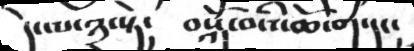དེ་ལ་༣་སྟེ།  བསྐོ་བའི་ཆོ་ག་དང།
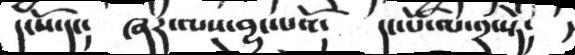དངོས་དང། ཞར་ལས་བྱུང་པའོ། དང་པོ་ལ་༢་སྟེ།
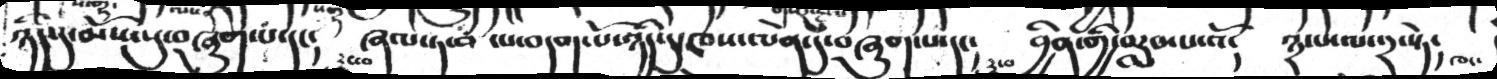ཉིད་དུ་མོས་སུ་བཞུག་པ་དང༴   ཞལ་ཏ་བ་པ་བདག་པོ་ཉིད་དུ་ཁས་ལེན་དུ་བཞུག་པ་དང་།  བྱིན་གྱི་བརླབ་པ་འོ༴  ༣་པ་ལ་༢་སྟེ༴
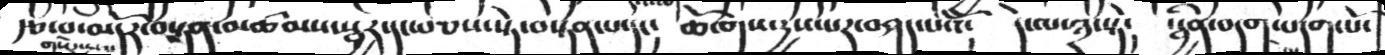རྩ་བ་མདོར་བསྟན་མཚམས་སྦྱར་དང་བཅས་སྟེ་བསྟན་པ་དང།    ཆོ་གས་རྱས་པར་བཤད་པའོ།   དེ་ལ་༣་སྟེ།   དེ་ལ་༣་སྟེ།    སྦྱིན་བདག་བདག་པོ་
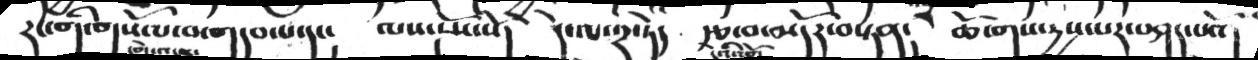རང་གི་གསོལ་བ་གདབ་པ་དང།    ལས་རྔོས་སོ།    དེ་ལ་༢་ཏེ།   རྩ་བ་མདོར་བསྟན།    ཆོ་གས་རྱས་པར་བཤད་པའོ།
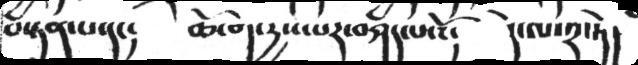བསྟན་པ་དང། ཆོ་ག་རྱས་པར་བཤད་པའོ། དེ་ལ་༢་ཏེ།
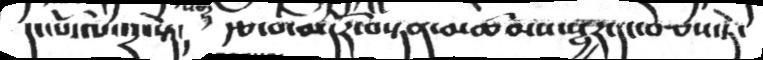དང་པོ་ལ་༢་སྟེ༴   རྩ་བ་མདོར་བསྟན་མཚམས་སྦྱར་དང་བཅས་ཏེ་
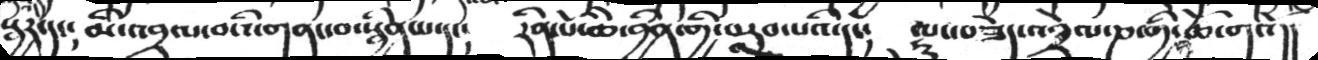སྦྱར་དང། མི་འབྲལ་བའི་གནང་བ་སྦྱིན་པ་དང། རིན་པོ་ཆེ་བྱིན་གྱི་བརླབ་པའི་དང། ལྷུང་བཟེད་འབྲེལ་ཎ་གི་ཆོ་གའོ།།
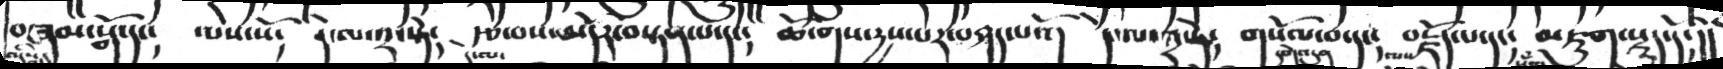བཞམ་སྒོ་དང༴  ལས་སོ༴  དེ་ལ་༢་སྟེ༴ རྩ་བས་མདོར་བསྟན་པ་དང༴   ཆོ་གས་དྱས་པར་བཤད་པའོ།  དེ་ལ་༢་ཏེ༴   གསོལ་བ་དང༴  བརྗོད་པ་དང༴  མཇུག་སྡུད་དོ༴།།
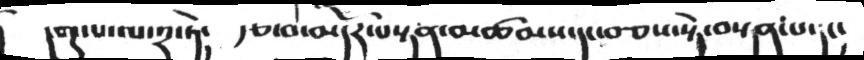དགུ་པ་ལ་༢་ཏེ།  རྩ་བ་མདོར་བསྟན་མཚམས་དང་བཅས་སྟེ་བསྟན་པ་དང།
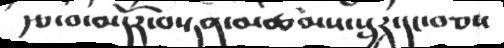རྩ་བ་མདོར་བསྟན་མཚམས་སྦྱར་དང་བཅས
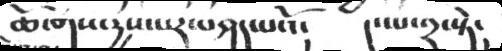ཆོ་གས་རྱས་པར་བཤད་པའོ། ད་ཡ་༢་སྟེ།
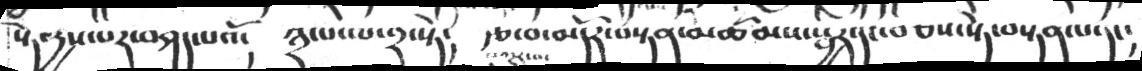སྟེ་དྱས་པར་བཤད་པའོ༴   ༣་པ་ལ་༢་སྟེ༴   རྩ་བ་མདོར་བསྟན་མཚམས་སྦྱར་དང་བཅས་སྟེ་བསྟན་པ་དང༴
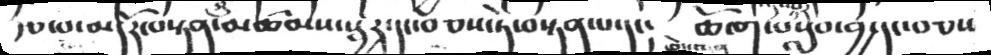རྩ་བ་མདོར་བསྟན་མཚམས་སྦྱར་དང་བཅས་ཏེ་བསྟན་པ་དང༴   ཆོ་ག་བསླབ་བྱ་དང་བཅས
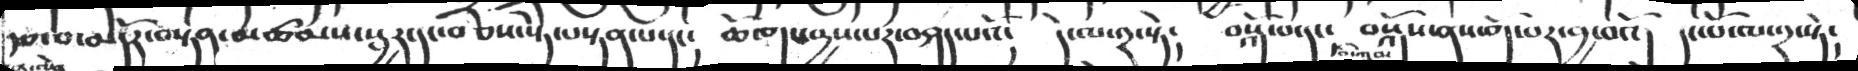རྩ་བ་མདོར་བསྟན་མཚམས་སྦྱར་དང་བཅས་སྟེ་བསྟན་པ་དང༴   ཆོ་གས་དྱས་པར་བཤད་པའོ༴   དེ་ལ་༢་སྟེ༴   བསྒོ་པ་དང་  བསྐོས་ནས་བདེ་བར་བྱའོ།   དང་པོ་ལ་༢་སྟེ༴
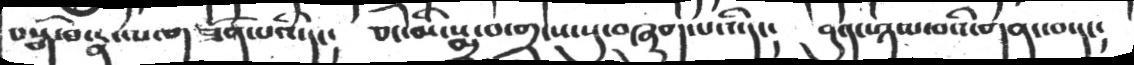བསྒོ་བ་རྣ་ལ་གཟོན་པའི་དང། ཅང་མི་སྨྲ་བ་གྲངས་སུ་བཞུག་པའི་དང། བུ་དང་ཉམ་བའི་གནང་བ་དང།
